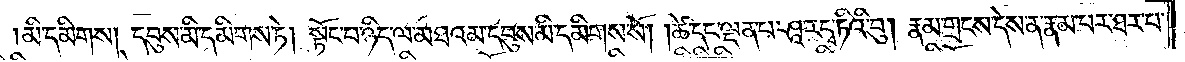མི་དམིགས། དབུས་མི་དམིགས་ཏེ། སྟོང་པ་ཉིད་ལ་མཐའམ་དབུས་མི་དམིགས་སོ། །ཚེ་དང་ལྡན་པ་ཤཱ་ར་དྭ་ཏིའི་བུ། རྣམ་གྲངས་དེས་ན་རྣམ་པར་ཐར་པ་
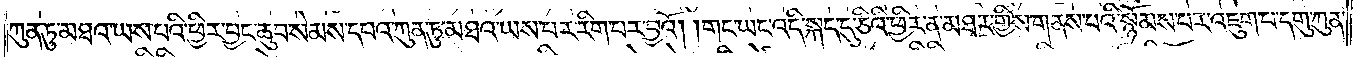ཀུན་ཏུ་མཐའ་ཡས་པའི་ཕྱིར་བྱང་ཆུབ་སེམས་དཔའ་ཀུན་ཏུ་མཐའ་ཡས་པར་རིག་པར་བྱའོ། །གང་ཡང་འདི་སྐད་དུ་ཅིའི་ཕྱིར་ན་མཐར་གྱིས་གནས་པའི་སྙོམས་པར་འཇུག་པ་དགུ་ཀུན་
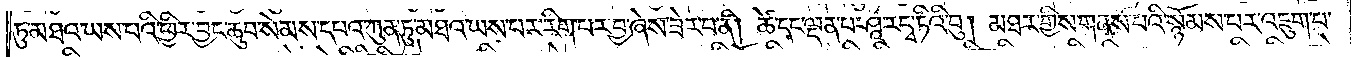ཏུ་མཐའ་ཡས་པའི་ཕྱིར་བྱང་ཆུབ་སེམས་དཔའ་ཀུན་ཏུ་མཐའ་ཡས་པར་རིག་པར་བྱ་ཞེས་ཟེར་བ་ནི། ཚེ་དང་ལྡན་པ་ཤཱ་ར་དྭ་ཏིའི་བུ། མཐར་གྱིས་གནས་པའི་སྙོམས་པར་འཇུག་པ་
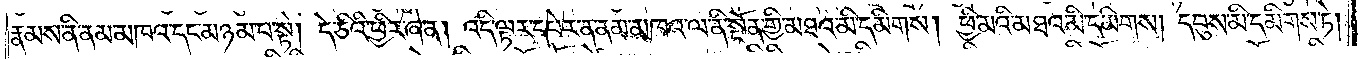རྣམས་ནི་ནམ་མཁའ་དང་མཉམ་པ་སྟེ། དེ་ཅིའི་ཕྱིར་ཞེ་ན། འདི་ལྟར་དཔེར་ན་ནམ་མཁའ་ལ་ནི་སྔོན་གྱི་མཐའ་མི་དམིགས། ཕྱི་མའི་མཐའ་མི་དམིགས། དབུས་མི་དམིགས་ཏེ།
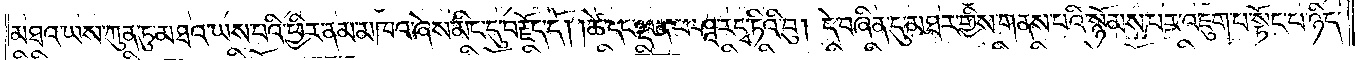མཐའ་ཡས་ཀུན་ཏུ་མཐའ་ཡས་པའི་ཕྱིར་ནམ་མཁའ་ཞེས་མིང་དུ་བརྗོད་དོ། །ཚེ་དང་ལྡན་པ་ཤཱ་ར་དྭ་ཏིའི་བུ། དེ་བཞིན་དུ་མཐར་གྱིས་གནས་པའི་སྙོམས་པར་འཇུག་པ་སྟོང་པ་ཉིད་
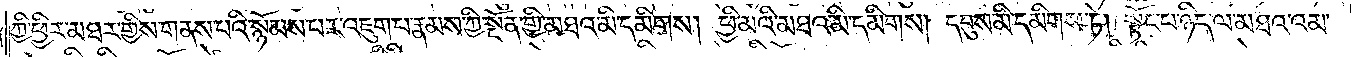ཀྱི་ཕྱིར་མཐར་གྱིས་གནས་པའི་སྙོམས་པར་འཇུག་པ་རྣམས་ཀྱི་སྔོན་གྱི་མཐའ་མི་དམིགས། ཕྱི་མའི་མཐའ་མི་དམིགས། དབུས་མི་དམིགས་ཏེ། སྟོང་པ་ཉིད་ལ་མཐའམ་
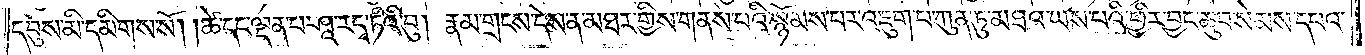དབུས་མི་དམིགས་སོ། །ཚེ་དང་ལྡན་པ་ཤཱ་ར་དྭ་ཏིའི་བུ། རྣམ་གྲངས་དེས་ན་མཐར་གྱིས་གནས་པའི་སྙོམས་པར་འཇུག་པ་ཀུན་ཏུ་མཐའ་ཡས་པའི་ཕྱིར་བྱང་ཆུབ་སེམས་དཔའ་
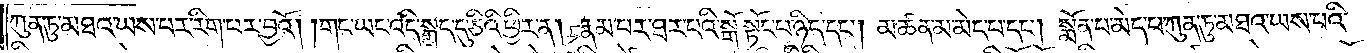ཀུན་ཏུ་མཐའ་ཡས་པར་རིག་པར་བྱའོ། །གང་ཡང་འདི་སྐད་དུ་ཅིའི་ཕྱིར་ན། རྣམ་པར་ཐར་པའི་སྒོ་སྟོང་པ་ཉིད་དང༌། མཚན་མ་མེད་པ་དང༌། སྨོན་པ་མེད་པ་ཀུན་ཏུ་མཐའ་ཡས་པའི་
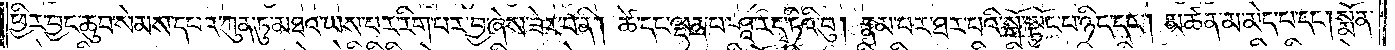ཕྱིར་བྱང་ཆུབ་སེམས་དཔའ་ཀུན་ཏུ་མཐའ་ཡས་པར་རིག་པར་བྱ་ཞེས་ཟེར་བ་ནི། ཚེ་དང་ལྡན་པ་ཤཱ་ར་དྭ་ཏིའི་བུ། རྣམ་པར་ཐར་པའི་སྒོ་སྟོང་པ་ཉིད་དང༌། མཚན་མ་མེད་པ་དང༌། སྨོན་
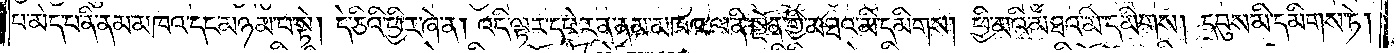པ་མེད་པ་ནི་ནམ་མཁའ་དང་མཉམ་པ་སྟེ། དེ་ཅིའི་ཕྱིར་ཞེ་ན། འདི་ལྟར་དཔེར་ན་ནམ་མཁའ་ལ་ནི་སྔོན་གྱི་མཐའ་མི་དམིགས། ཕྱི་མའི་མཐའ་མི་དམིགས། དབུས་མི་དམིགས་ཏེ།
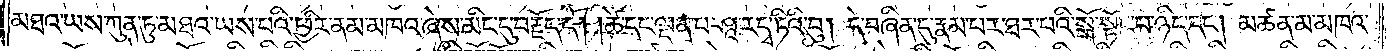མཐའ་ཡས་ཀུན་ཏུ་མཐའ་ཡས་པའི་ཕྱིར་ནམ་མཁའ་ཞེས་མིང་དུ་བརྗོད་དོ། །ཚེ་དང་ལྡན་པ་ཤཱ་ར་དྭ་ཏིའི་བུ། དེ་བཞིན་དུ་རྣམ་པར་ཐར་པའི་སྒོ་སྟོང་པ་ཉིད་དང༌། མཚན་མ་མཁའ་
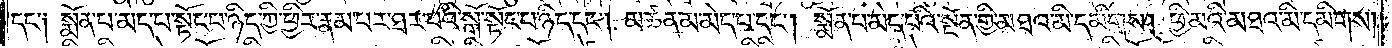དང་༑ སྨོན་པ་མེད་པ་སྟོང་པ་ཉིད་ཀྱི་ཕྱིར་རྣམ་པར་ཐར་པའི་སྒོ་སྟོང་པ་ཉིད་དང༌། མཚན་མ་མེད་པ་དང༌། སྨོན་པ་མེད་པའི་སྔོན་གྱི་མཐའ་མི་དམིགས། ཕྱི་མའི་མཐའ་མི་དམིགས།
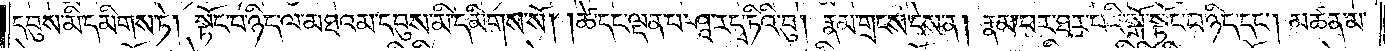དབུས་མི་དམིགས་ཏེ། སྟོང་པ་ཉིད་ལ་མཐའམ་དབུས་མི་དམིགས་སོ། །ཚེ་དང་ལྡན་པ་ཤཱ་ར་དྭ་ཏིའི་བུ། རྣམ་གྲངས་དེས་ན། རྣམ་པར་ཐར་པའི་སྒོ་སྟོང་པ་ཉིད་དང༌། མཚན་མ་
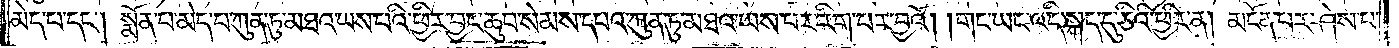མེད་པ་དང༌། སྨོན་པ་མེད་པ་ཀུན་ཏུ་མཐའ་ཡས་པའི་ཕྱིར་བྱང་ཆུབ་སེམས་དཔའ་ཀུན་ཏུ་མཐའ་ཡས་པར་རིག་པར་བྱའོ། །གང་ཡང་འདི་སྐད་དུ་ཅིའི་ཕྱིར་ན། མངོན་པར་ཤེས་པ་
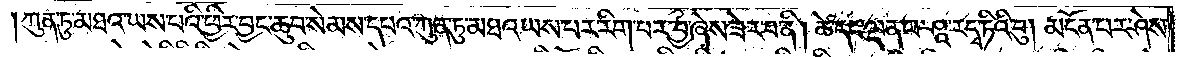ཀུན་ཏུ་མཐའ་ཡས་པའི་ཕྱིར་བྱང་ཆུབ་སེམས་དཔའ་ཀུན་ཏུ་མཐའ་ཡས་པར་རིག་པར་བྱ་ཞེས་ཟེར་བ་ནི། ཚེ་དང་ལྡན་པ་ཤཱ་ར་དྭ་ཏིའི་བུ། མངོན་པར་ཤེས་
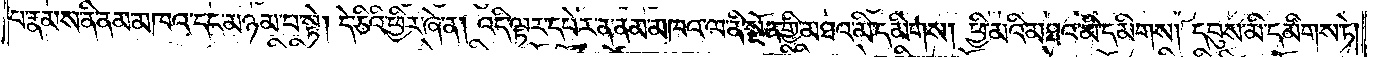པ་རྣམས་ནི་ནམ་མཁའ་དང་མཉམ་པ་སྟེ། དེ་ཅིའི་ཕྱིར་ཞེ་ན། འདི་ལྟར་དཔེར་ན་ནམ་མཁའ་ལ་ནི་སྔོན་གྱི་མཐའ་མི་དམིགས། ཕྱི་མའི་མཐའ་མི་དམིགས། དབུས་མི་དམིགས་ཏེ།
